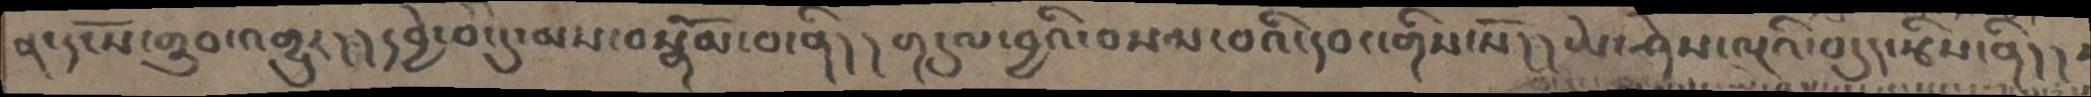ན་དངོས་གྲུབ་འགྱུར། །དབྱེ་བ་དུ་མས་བསྒོམ་བ་ནི། །གདུལ་བྱའི་བསམ་བའི་དབང་གིས་སོ། །ཡེ་ཤེས་ལྔའི་བདུད་རྩིས་ནི། །
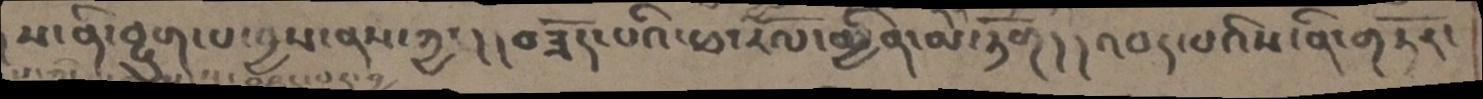ས་ནི་བྱུག་པ་བྱས་ནས་ཀྱང་། །བཟོད་པའི་ཕ་རོལ་མྱིན་མེ་ཏོག། །འབད་པའིས་ནི་གཏོར་
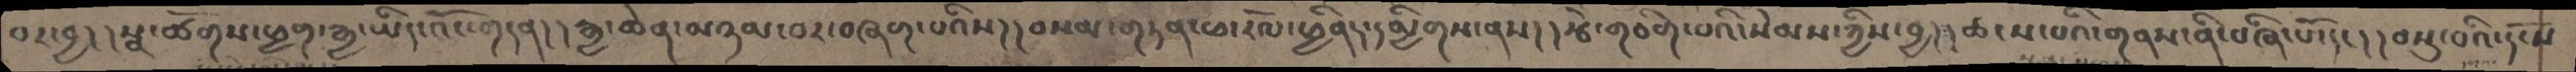བར་བྱ། །སྣ་ཚོགས་ཕྱག་རྒྱ་ཡིད་འོང་གདན། །རྒྱ་ཆེན་མཉམ་བར་བཞག་པའིས། །བསམ་གཏན་ཕ་རོལ་ཕྱིནད་དམྱིགས་ནས། །རྩེ་གཅིག་པའི་སེམས་ཀྱིས་བྱ། །ཆངས་པའི་གནས་ནི་བཞི་པོ་དང། །བསྡུ་བའི་དངོས་
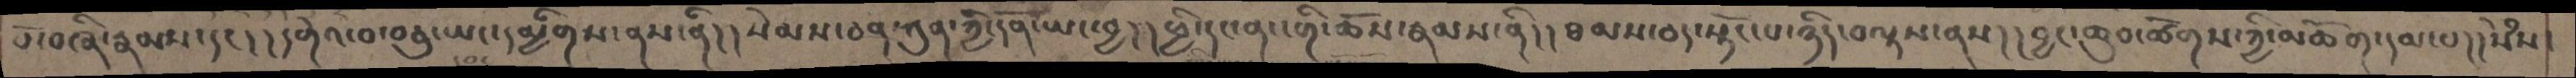པོ་བཞི་རྣམས་དང། །དགེའ་བ་བཅུ་ཡང་དམྱིགས་ནས་ནི། །སེམས་ཅན་ཀུན་ཀྱི་དོན་ཡང་བྱ། །ཕྱི་དང་ནང་གི་ཆོས་རྣམས་ནི། །ཐམས་ཅད་སྟོང་པ་ཉིད་བལྟས་ནས། །བྱང་ཆུབ་ཚོགས་ཀྱི་མཆོག་དམ་པ། །སེཾས་
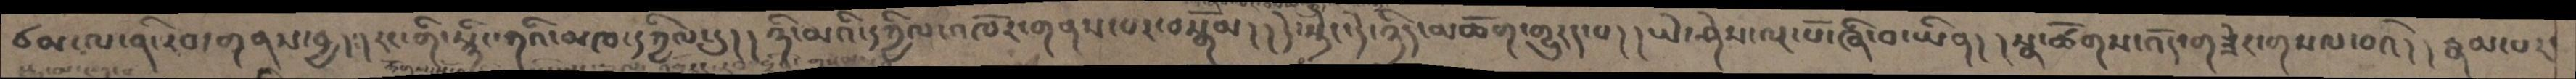ཙམ་ལ་ནི་རབ་གནས་བྱ། །རང་གི་སྙིང་ཀའི་མཁ་དཀྱིལ་དུ། །ཉི་མའི་དཀྱིལ་འཁོར་གནས་པར་བསྒོམ། །དེ་སྟེང་དེ་ཉིད་མཆོག་གྱུརད་པ། །ཡེ་ཤེས་ལྔ་པོ་ཞི་བ་ཡིན། །སྣ་ཚོགས་འོད་གཟེར་གསལ་བའི། །རྣམ་པར་
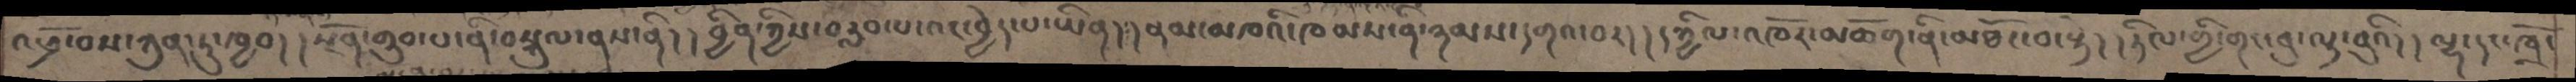འཕྲོ་བས་ཀུན་ཏུ་ཁྱབ། །སྔོན་གྲུབ་པ་ནི་བསྐུལ་ནས་ནི། །བྱིན་ཀྱིས་བརླབ་པ་འང་བྱེད་པ་ཡིན། །ནམ་མཁའི་ཁམས་ནི་ཉམས་དགའ་བར། །དཀྱིལ་འཁོར་མཆོག་ནི་མཐོང་བ་སྟེ། །ཏིལ་གྱི་གང་བུ་ལྟ་བུའི། །ལྷ་དང་ཁྲོ་
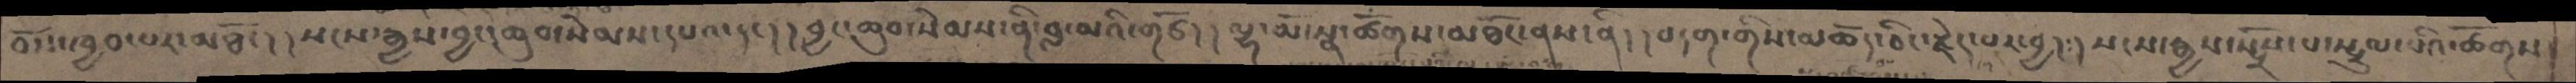བོས་ཁྱབ་པར་མཐོང། །སངས་རྒྱས་བྱང་ཆུབ་སེམས་དཔའ་དང། །བྱང་ཆུབ་སེམས་ནི་བླ་མའི་གཙོ། །ལྷ་མོ་སྣ་ཚོགས་མཐོང་ནས་ནི། །བདག་གིས་མཆོད་ཅིང་རྗེད་པར་བྱ། །སངས་རྒྱས་སྤྲོས་པ་སྤྲུལ་པའི་ཚོགས།
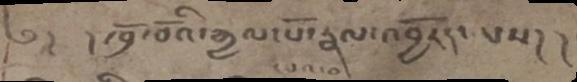༄ །  ། ཁྲོ་བོའི་རྒྱལ་པོ་རྣལ་འབྱོརད་པས། །
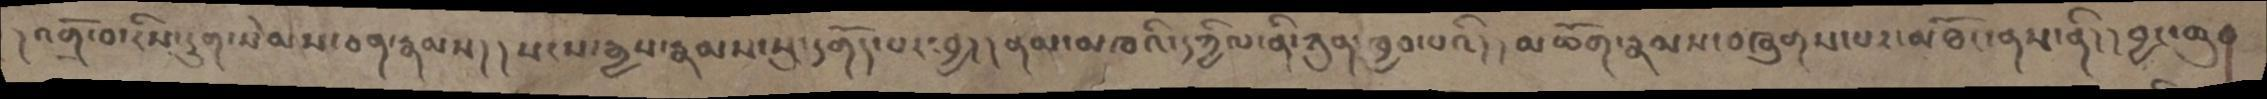། འགྲོ་བ་རིས་དྲུག་སེམས་ཅན་རྣམས། །སངས་རྒྱས་རྣམས་སུ་དགོད་པར་བྱ། །ནམ་མཁའི་དཀྱིལ་ནི་ཀུན་ཁྱབ་པའི། །མཆོག་རྣམས་བཞུགས་པར་མཐོང་ནས་ནི། །བྱང་ཆུབ
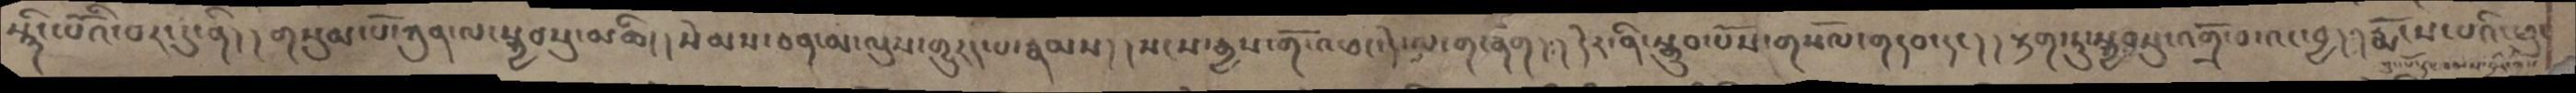སྙིང་པོའི་བར་དུ་ནི། །གསུམ་པོ་ཀུན་ལ་སྐྱབསུ་མཆི། །སེམས་ཅན་མ་ལུས་གྱུརད་པ་རྣམས། །སངས་རྒྱས་གོ་འཕང་དེ་ལ་གཞོག། །དེར་ནི་སྒྲུབ་པོས་གསོལ་གདབ་དང། །རྟག་ཏུ་སྐྱབསུ་འགྲོ་བ་འང་བྱ། །རྨོངས་པའི་ཕུང
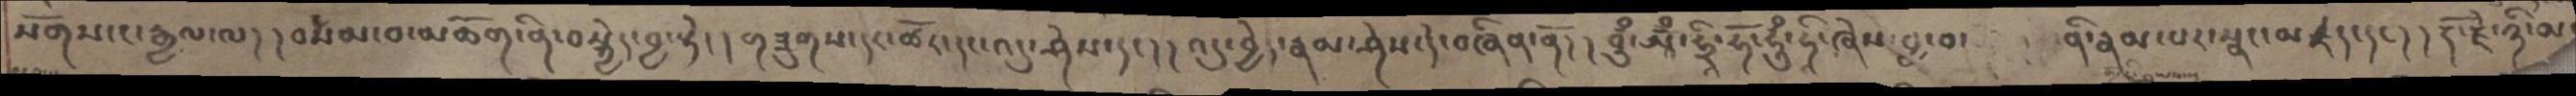སོགས་ང་རྒྱལ་ལ། །བསམ་བ་མཆོག་ནི་བསྐྱེད་བྱ་སྟེ། །གཟུགས་དང་ཚོར་དང་འདུ་ཤེས་དང། །འདུ་བྱེད་རྣམ་ཤེས་དེ་བཞིན་ནོ། །བྲུྃ་ཨཱྃ་ཧྲཱི་ཧོ་ཧུྃ་ཧཱི་ཞེས་བྱ་བ་  ནི་རྣམ་པར་སྣང་མཛད་དང། །རྡོ་རྗེ་ཉི་མ་
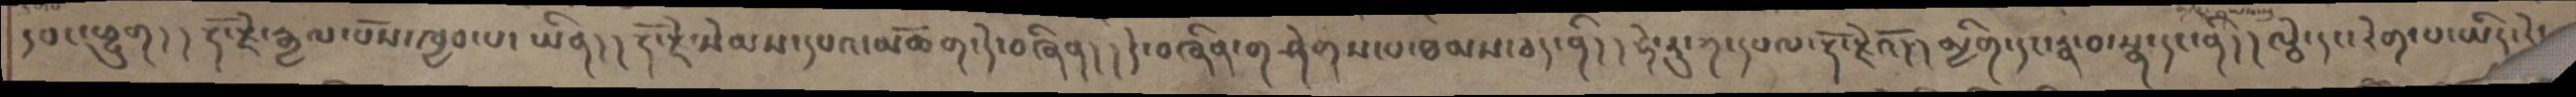དབང་ཕྱུག། །རྡོ་རྗེ་རྒྱལ་པོས་ཁྱབ་པ་ཡིན། །རྡོ་རྗེ་སེམས་དཔའ་མཆོག་དེ་བཞིན། །དེ་བཞིན་གཤེགས་པ་ཐམས་ཅད་ནི། །ཧེ་རུ་ཀ་དཔལ་རྡོ་རྗེའོད། །མྱིག་དང་རྣ་བ་སྣ་དང་ནི། །ལྕེ་དང་རེག་པ་ཡིད་དེ་
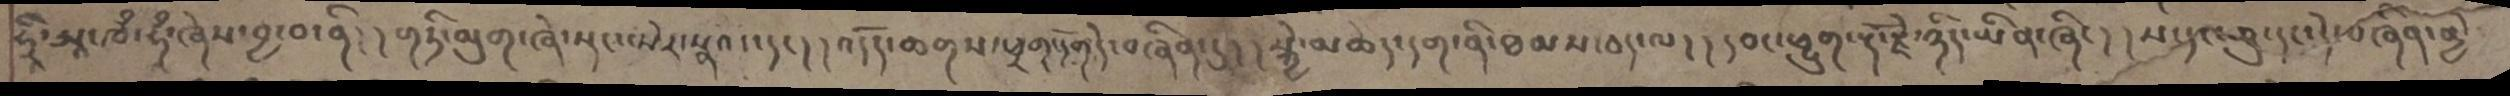ཧྲཱི་ཨཱ་ཁཾ་ཧཱཾ་ཞེས་བྱ་བ་ནི། །གཏི་མུག་ཞེ་སྡང་སེར་སྣའ་་དང། །འདོད་ཆགས་ཕྲག་དོགདེ་བཞིན་དུ། །སྐྱེ་མཆེད་དག་ནི་ཐམས་ཅད་ལ། །དབང་ཕྱུག་རྡོ་རྗེ་ཉིད་ཡིན་ཞིང། །ས་དང་ཆུ་དང་དེ་བཞིན་མྱེ
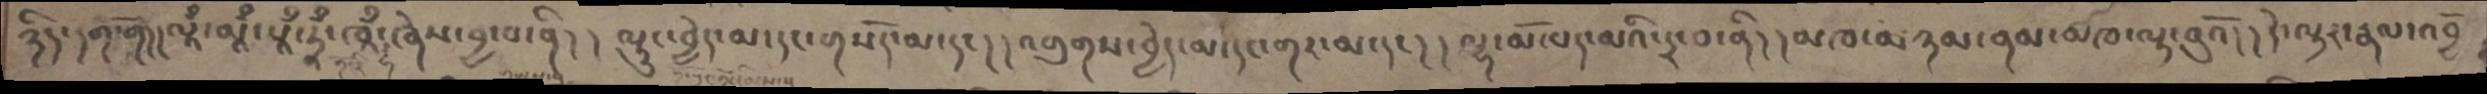ཉིད་དག་གོ།། ལཱྃ་མཱྃ་པཱྃ་ཏཱྃ་ཁཱྃ་དྷ་ཞེས་བྱ་བ་ནི། །ལྟུང་བྱེད་མ་དང་གསོད་མ་དང། །འགུགས་བྱེད་མ་དང་གར་མ་དང། །ལྷ་མོ་པད་མའི་དྲ་བ་ནི། །མཁ་མཉམ་ནམ་མཁ་ལྟ་བུའོ། །དེ་ལྟར་རྣལ་འབྱོ
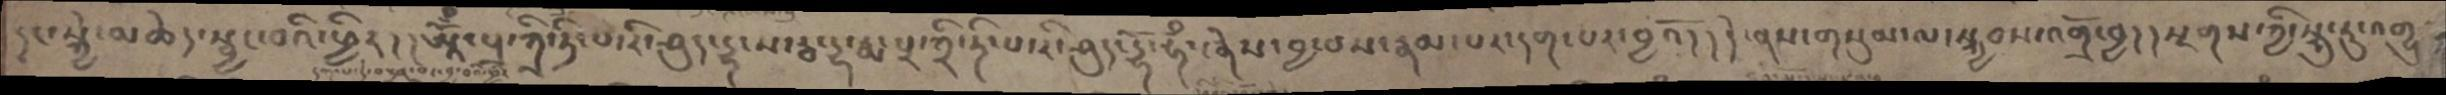དང་སྐྱེ་མཆེད་སྦྱང་བའི་ཕྱིར། །ཨཱོྃ་པྲ་ཀྲི་ཏི་པ་རི་ཤུད་དྷ་ས་རྦ་དྷ་རྨ་པྲ་ཀྲི་ཏི་པ་རི་ཤུད་དྷོ་ཧྃ་ཞེས་བྱ་བས་རྣམ་པར་དག་པར་བྱའོ། །དེ་ནས་གསུམ་ལ་སྐྱབས་འགྲོ་བྱ། །སྔགས་ཀྱི་སྐུ་རུ་འགྱུ
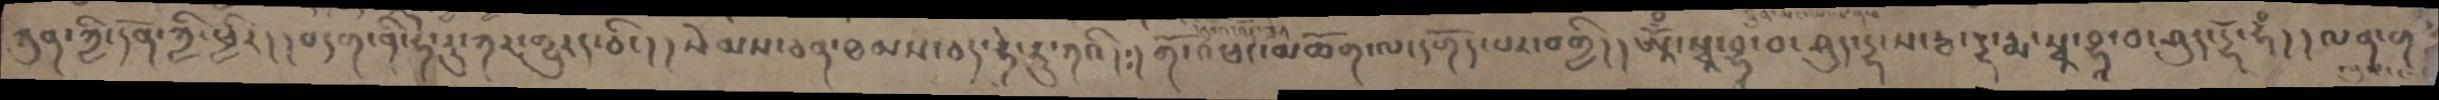ཀུན་ཀྱི་དོན་ཀྱི་ཕྱིར། །བདག་ནི་ཧེ་རུ་ཀར་གྱུརད་ཅིང། །སེམས་ཅན་ཐམས་ཅད་ཧེ་རུ་ཀའི། །གོ་འཕང་མཆོག་ལ་དགོད་པར་བགྱི། །ཨཱོཾ་སྭཱ་བྷ་བ་ཤུད་དྷ་ས་རྦ་དྷ་རྨ་སྭཱ་བྷཱ་བ་ཤུད་དྷོ་ཧཾ། །ལན་ག
